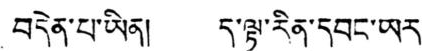བདེན་པ་ཡིན། ད་ལྟ་རིན་དབང་ཡར་
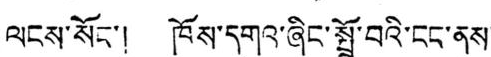ལངས་སོང་། ཁོས་དགའ་ཞིང་སྤྲོ་བའི་ངང་ནས་
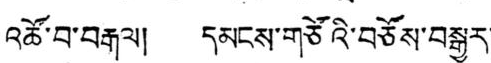འཚོ་བ་བརྒལ། དམངས་གཙོའི་བཅོས་བསྒྱུར་
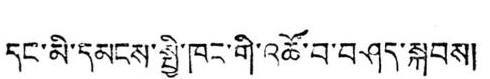དང་མི་དམངས་སྤྱི་ཁང་གི་འཚོ་བ་བཤད་སྐབས།
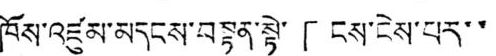ཁོས་འཛུམ་མདངས་བསྟན་སྟེ་「ངས་ངེས་པར་་
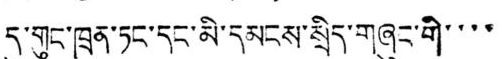དུ་གུང་ཁྲན་ཏང་དང་མི་དམངས་སྲིད་གཞུང་གི་་་་
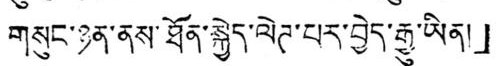གསུང་ཉན་ནས་ཐོན་སྐྱེད་ལེཊ་པར་བྱེད་རྒྱུ་ཡིན།」
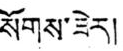སོགས་ཟེར།
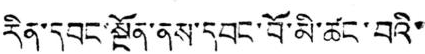རིན་དབང་སྔོན་ནས་དབང་བོ་མི་ཚང་བའི་
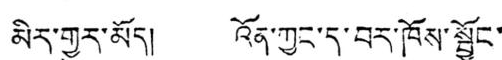མིར་གྱུར་མོད། འོན་ཀྱང་ད་བར་ཁོས་སྦྱོང་
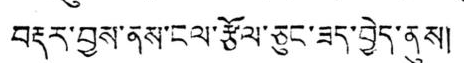བརྡར་བྱས་ནས་ངལ་རྩོལ་ཅུང་ཟད་བྱེད་ནུས།
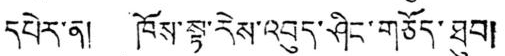དཔེར་ན། ཁོས་སྟེ་རེས་འབུད་ཤིང་གཅོད་ཐུབ།
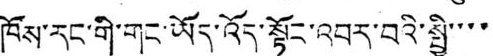ཁོས་རང་གི་གང་ཡོད་འོད་སྟོང་འབར་བའི་སྤྱི་་་་
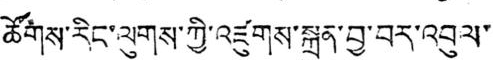ཚོགས་རིང་ལུགས་ཀྱི་འཛུགས་སྐྲུན་བྱ་བར་འབུལ་
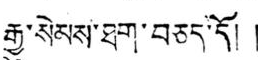རྒྱུ་སེམས་ཐག་བཅད་དོ། །
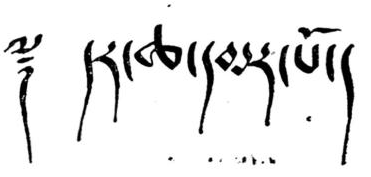༈ དར་ཆ་དམར་པོ།
